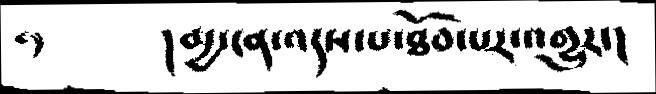༅      །མྱ་ངན་འདས་པ་ཐོབ་པར་འགྱུར་།
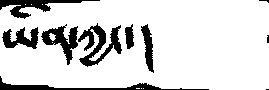ཡིན་ཀྱང་།
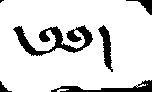༄༅།
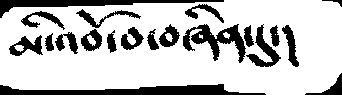མི་འབོ་བ་བཞིན་དུ་།
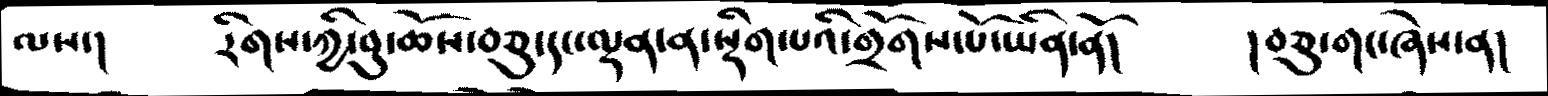ལས་།          རིགས་ཀྱི་བུ་ཆོས་བཅུ་དང་ལྡན་ན་སྡིག་པའི་གྲོགས་པོ་ཡིན་ནོ།   །བཅུ་གང་ཞེས་ན།
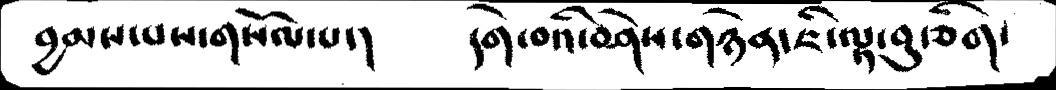བྱམས་པས་གསོལ་པ་།    དགེ་བའི་བཤེས་གཉེན་ཇི་ལྟ་བུ་ཅིག་
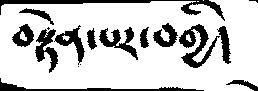བསྟེན་པར་བགྱི།
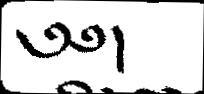༄༅།
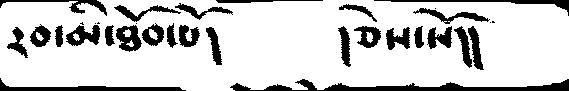རབ་མི་ཐོབ་པོ།    །ཅེས་སོ།།
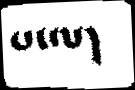པ་ལ།
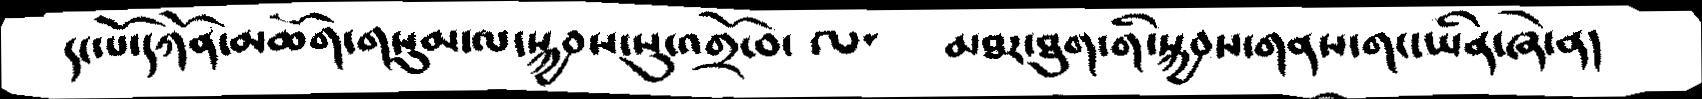དང་པོ་དཀོན་མཆོག་གསུམ་ལ་སྐྱབས་སུ་འགྲོ་བ་  ལ་   མཐར་ཐུག་གི་སྐྱབས་གནས་གང་ཡིན་ཞེ་ན།
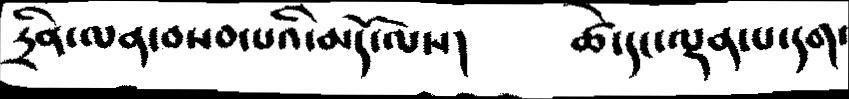ཏྲིན་ལན་བསབ་པའི་མདོ་ལས།      ཚེ་དང་ལྡན་པ་དག་
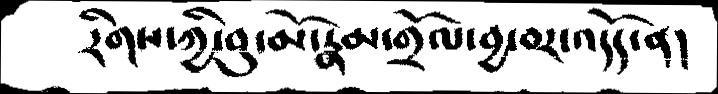རིགས་ཀྱི་བུ་མོ་རྣམ་གྲོལ་བྱ་བར་འདོད་ན།
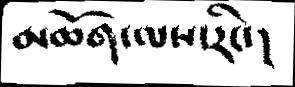མཆོག་ལས་རིང་།
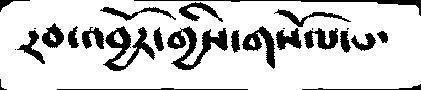རབ་འབྱོར་གྱིས་གསོལ་པ་
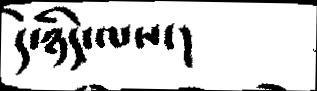དེ་ཉིད་ལས་།
